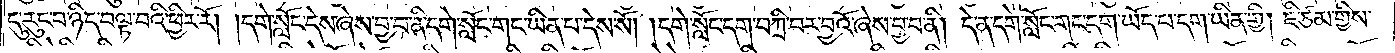དུ་རུང་བ་ཉིད་བལྟ་བའི་ཕྱིར་རོ། །དགེ་སློང་དེས་ཞེས་བྱ་བ་ནི་དགེ་སློང་གང་ཡིན་པ་དེས་སོ། །དགེ་སློང་དག་བཀྲི་བར་བྱའོ་ཞེས་བྱ་བ་ནི། དེ་ན་དགེ་སློང་གང་དག་ཡོད་པ་དག་ཡིན་གྱི། ཇི་ཙམ་གྱིས་
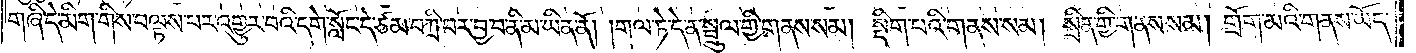གཞི་དེ་མིག་གིས་བལྟས་པར་འགྱུར་བའི་དགེ་སློང་དེ་ཙམ་བཀྲི་བར་བྱ་བ་ནི་མ་ཡིན་ནོ། །གལ་ཏེ་དེ་ན་སྦྲུལ་གྱི་གནས་སམ། སྡིག་པའི་གནས་སམ། སྲིན་གྱི་གནས་སམ། གྲོག་མའི་གནས་ཡོད་
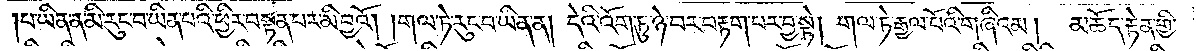པ་ཡིན་ན་མི་རུང་བ་ཡིན་པའི་ཕྱིར་བསྟན་པར་མི་བྱའོ། །གལ་ཏེ་རུང་བ་ཡིན་ན། དེའི་འོག་ཏུ་ཉེ་བར་བརྟག་པར་བྱ་སྟེ། གལ་ཏེ་རྒྱལ་པོའི་གཞིའམ།  མཆོད་རྟེན་གྱི་
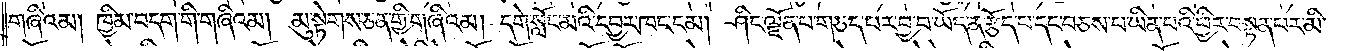གཞིའམ། ཁྱིམ་བདག་གི་གཞིའམ། མུ་སྟེགས་ཅན་གྱི་གཞིའམ། དགེ་སློང་མའི་དབྱར་ཁང་ངམ། ཤིང་ལྗོན་པ་གཅད་པར་བྱ་བ་ཡོད་ན་རྩོད་པ་དང་བཅས་པ་ཡིན་པའི་ཕྱིར་བསྟན་པར་མི་
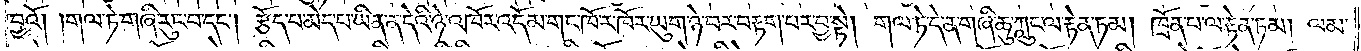བྱའོ། །གལ་ཏེ་གཞི་རུང་བ་དང༌། རྩོད་པ་མེད་པ་ཡིན་ན་དེའི་ཉེ་འཁོར་འདོམ་གང་ཁོ་ར་ཁོར་ཡུག་ཉེ་བར་བརྟག་པར་བྱ་སྟེ། གལ་ཏེ་དེ་ན་གཞི་ཆུ་ཀླུང་ལ་རྟེན་ཏམ། ཁྲོན་པ་ལ་རྟེན་ཏམ། ལམ་
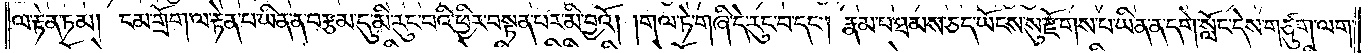ལ་རྟེན་ཏམ། ངམ་གྲོག་ལ་རྟེན་པ་ཡིན་ན་བརྩམ་དུ་མི་རུང་བའི་ཕྱིར་བསྟན་པར་མི་བྱའོ། །གལ་ཏེ་གཞི་དེ་རུང་བ་དང༌། རྣམ་པ་ཐམས་ཅད་ཡོངས་སུ་རྫོགས་པ་ཡིན་ན་དགེ་སློང་དེས་གཙུག་ལག་
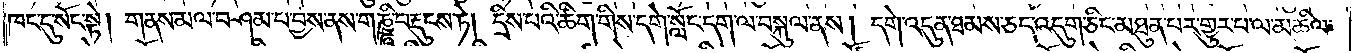ཁང་དུ་སོང་སྟེ། གནས་མལ་བཤམ་པ་བྱས་ནས་གཎྜཱི་བརྡུངས་ཏེ། དྲིས་པའི་ཚིག་གིས་དགེ་སློང་དག་ལ་བསྐུལ་ནས། དགེ་འདུན་ཐམས་ཅད་འདུག་ཅིང་མཐུན་པར་གྱུར་པ་ལ་མཆིལ་
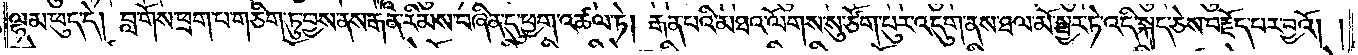ལྷམ་ཕུད་དེ། བླ་གོས་ཕྲག་པ་གཅིག་ཏུ་བྱས་ནས་རྒན་རིམས་བཞིན་དུ་ཕྱག་འཚལ་ཏེ། རྒན་པའི་མཐའ་ལོགས་སུ་ཙོག་པུར་འདུག་ནས་ཐལ་མོ་སྦྱར་ཏེ་འདི་སྐད་ཅེས་བརྗོད་པར་བྱའོ། །
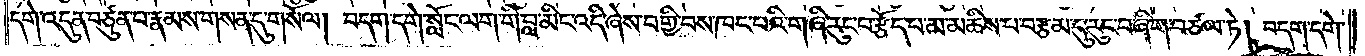དགེ་འདུན་བཙུན་པ་རྣམས་གསན་དུ་གསོལ། བདག་དགེ་སློང་ལག་གི་བླ་མིང་འདི་ཞེས་བགྱི་བས་ཁང་པའི་གཞི་རུང་བ་རྩོད་པ་མ་མཆིས་པ་བརྩམ་དུ་རུང་བ་ཞིག་བཙལ་ཏེ། བདག་དགེ་
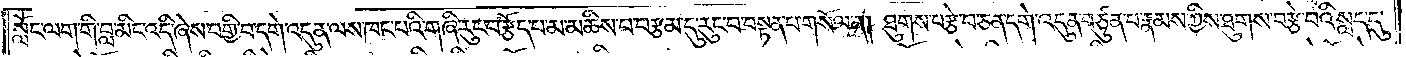སློང་ལག་གི་བླ་མིང་འདི་ཞེས་བགྱི་བ་དགེ་འདུན་ལས་ཁང་པའི་གཞི་རུང་བ་རྩོད་པ་མ་མཆིས་པ་བརྩམ་དུ་རུང་བ་བསྟན་པ་གསོལ་ན། ཐུགས་བརྩེ་བ་ཅན་དགེ་འདུན་བཙུན་པ་རྣམས་ཀྱིས་ཐུགས་བརྩེ་བའི་སླད་དུ་
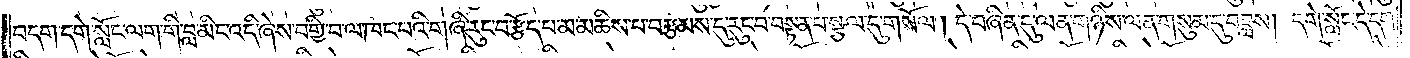བདག་དགེ་སློང་ལག་གི་བླ་མིང་འདི་ཞེས་བགྱི་བ་ལ་ཁང་པའི་གཞི་རུང་བ་རྩོད་པ་མ་མཆིས་པ་བརྩམས་དུ་རུང་བ་བསྟན་པ་སྩལ་དུ་གསོལ། དེ་བཞིན་དུ་ལན་གཉིས་ལན་གསུམ་དུ་བཟླས། དགེ་སློང་དེ་དག་
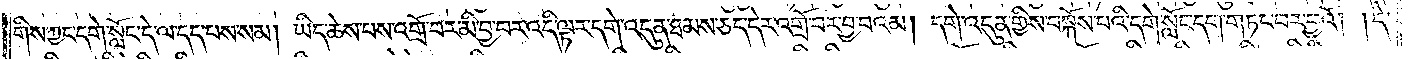གིས་ཀྱང་དགེ་སློང་དེ་ལ་དད་པས་སམ། ཡིད་ཆེས་པས་འགྲོ་བར་མི་བྱ་བར་འདི་ལྟར་དགེ་འདུན་ཐམས་ཅད་དེར་འགྲོ་བར་བྱ་བའམ། དགེ་འདུན་གྱིས་བསྐོས་པའི་དགེ་སློང་དག་གཏང་བར་བྱའོ། །དེ་
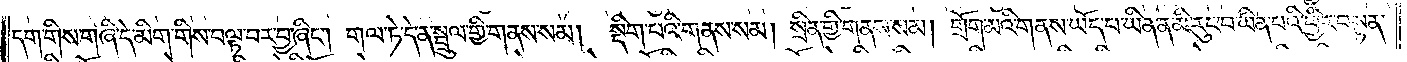དག་གིས་གཞི་དེ་མིག་གིས་བལྟ་བར་བྱ་ཞིང༌། གལ་ཏེ་དེ་ན་སྦྲུལ་གྱི་གནས་སམ། སྡིག་པའི་གནས་སམ། སྲིན་གྱི་གནས་སམ། གྲོག་མའི་གནས་ཡོད་པ་ཡིན་ན་མི་རུང་བ་ཡིན་པའི་ཕྱིར་བསྟན་
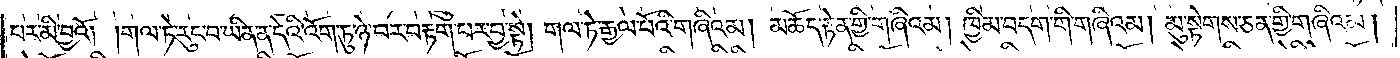པར་མི་བྱའོ། །གལ་ཏེ་རུང་བ་ཡིན་ན་དེའི་འོག་ཏུ་ཉེ་བར་བརྟག་པར་བྱ་སྟེ། གལ་ཏེ་རྒྱལ་པོའི་གཞིའམ། མཆོད་རྟེན་གྱི་གཞིའམ། ཁྱིམ་བདག་གི་གཞིའམ། མུ་སྟེགས་ཅན་གྱི་གཞིའམ།
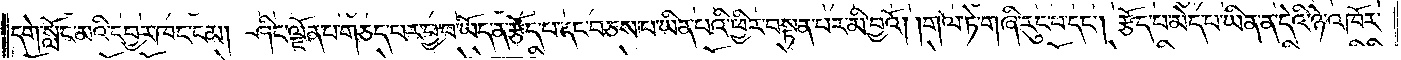དགེ་སློང་མའི་དབྱར་ཁང་ངམ། ཤིང་ལྗོན་པ་གཅད་པར་བྱ་བ་ཡོད་ན་རྩོད་པ་དང་བཅས་པ་ཡིན་པའི་ཕྱིར་བསྟན་པར་མི་བྱའོ། །གལ་ཏེ་གཞི་རུང་བ་དང༌། རྩོད་པ་མེད་པ་ཡིན་ན་དེའི་ཉེ་འཁོར་
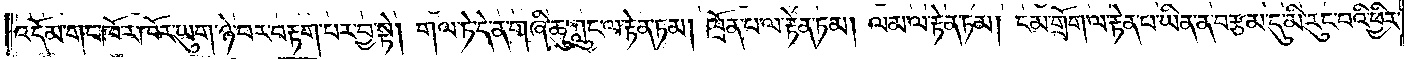འདོམ་གང་ཁོ་ར་ཁོར་ཡུག་ཉེ་བར་བརྟག་པར་བྱ་སྟེ། གལ་ཏེ་དེ་ན་གཞི་ཆུ་ཀླུང་ལ་རྟེན་ཏམ། ཁྲོན་པ་ལ་རྟེན་ཏམ། ལམ་ལ་རྟེན་ཏམ། ངམ་གྲོག་ལ་རྟེན་པ་ཡིན་ན་བརྩམ་དུ་མི་རུང་བའི་ཕྱིར་
